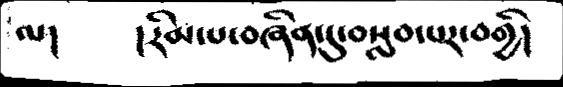ལ།      །རིམ་པ་བཞིན་དུ་བསླབ་པར་བགྱི།
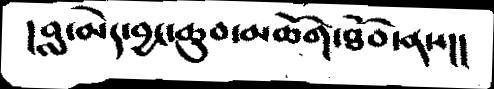།བླ་མེད་བྱང་ཆུབ་མཆོག་ཐོབ་ནས།།
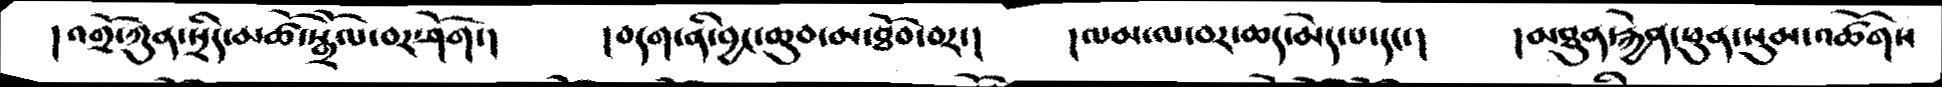།འགྲོ་ཀུན་སྲིད་མཚོ་སྒྲོལ་བར་ཤོག་།     བདག་ནི་བྱང་ཆུབ་མ་ཐོབ་བར་།    །ལམ་ལ་རབ་ཆད་མེད་པ་དང་།    །མཐུན་རྐྱེན་ཕུན་སུམ་འཚོགས
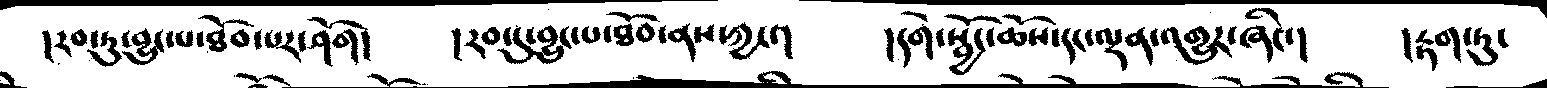།རབ་ཏུ་བྱུང་པ་ཐོབ་པར་ཤོག།   །རབ་དུ་བྱུང་པ་ཐོབ་ནས་ཀྱང་།   །དགེ་སྦྱོང་ཆོས་དང་ལྡན་འགྱུར་ཞིང་།   །རྟག་ཏུ་
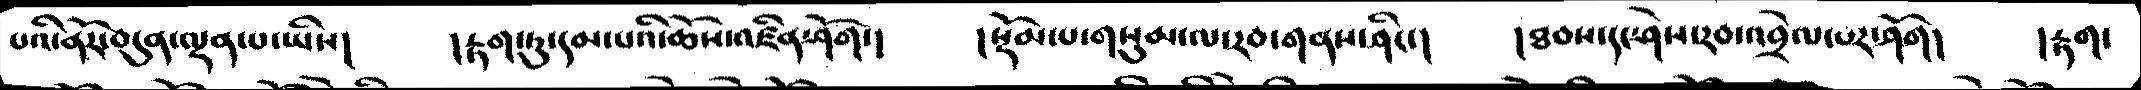པའི་ནོར་བདུན་ལྡན་པ་ཡིས་།  །རྟག་ཏུ་དམ་པའི་ཆོས་འཛིན་ཤོག་།   །སྡོམ་པ་གསུམ་ལ་རབ་གནས་ཤིང་།   །ཐབས་དང་ཤེས་རབ་འབྲེལ་པར་ཤོག།   །རྟག་
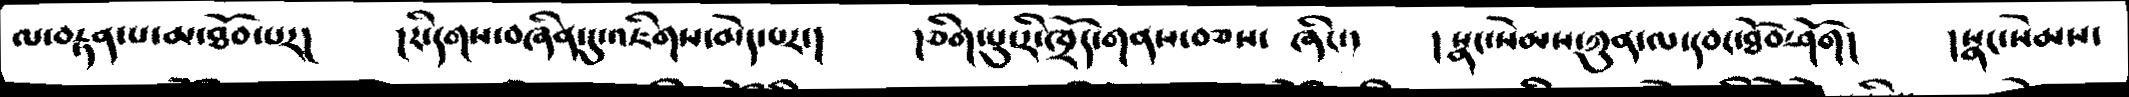ལ་བརྟན་པ་མ་ཐོབ་པར།   །རི་དགས་བཞིན་དུ་འཇིགས་མེད་པར་།   །ཅིག་པུ་རི་ཁྲོད་གནས་བཅས་ ཞིང་།   །སྣང་སེམས་ཀུན་ལ་དབང་ཐོབ་ཤོག།   །སྣང་སེམས་
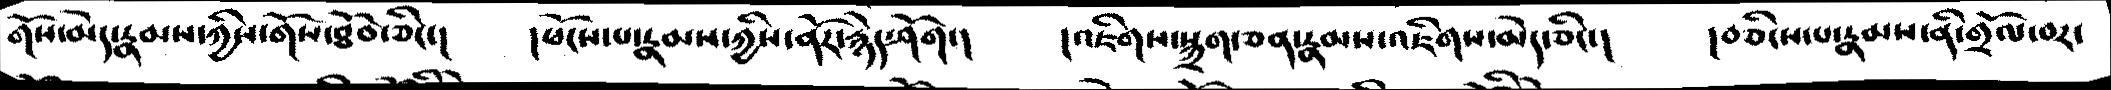གོས་མེད་རྣམས་ཀྱིས་གོས་ཐོབ་ཅིང་།   །ཕོངས་པ་རྣམས་ཀྱིས་ནོར་རྙེད་ཤོག་།   །འཇིགས་སྐྲག་ཅན་རྣམས་འཇིགས་མེད་ཅིང་།   །བཅིངས་པ་རྣམས་ནི་གྲོལ་བར་
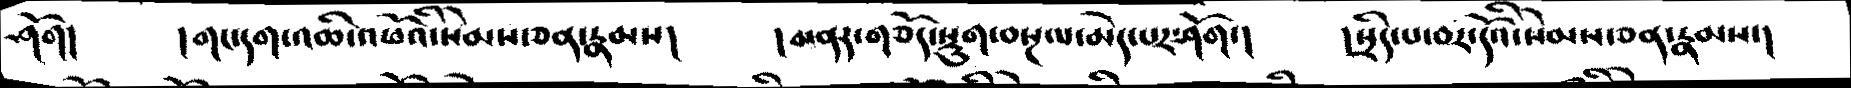ཤོག།   །གང་དག་འཆི་འཕོའི་སེམས་ཅན་རྣམས།   །མནར་གཅོད་སྡུག་བསྔལ་མེད་པར་ཤོག་།   །སྲིད་པ་བར་དོའི་སེམས་ཅན་རྣམས་།
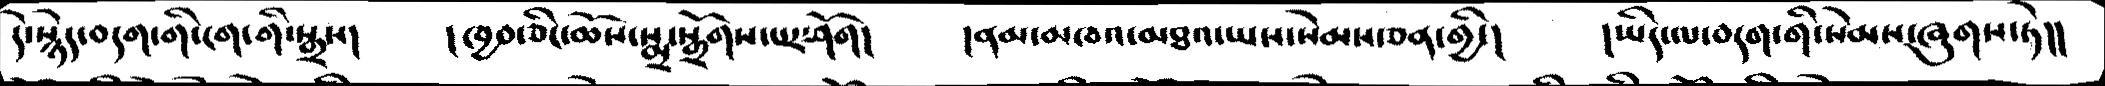དེ་སྙེད་བདག་གི་ངག་གི་སྒྲས།    །ཁྱབ་ཅིང་ཆོས་སྨྲ་སྒྲོགས་པར་ཤོག།    །ནམ་མཁའ་མཐའ་ཡས་སེམས་ཅན་གྱི་།     །ཡིད་ལ་བདག་གི་སེམས་ཞུགས་ཏེ།།
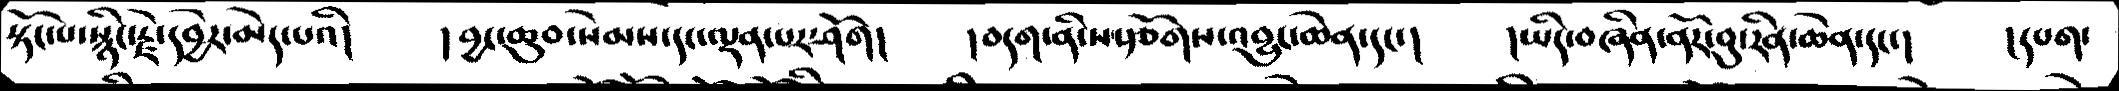སྟོང་པ་སྙིང་རྗེ་དབྱེར་མེད་པའི།    །བྱང་ཆུབ་སེམས་དང་ལྡན་པར་ཤོག།    །བདག་ནི་ས་རྩོགས་འབྱུང་ཆེན་དང་།    །ཡིད་བཞིན་ནོར་བུ་རིན་ཆེན་དང་།   །དཔག་
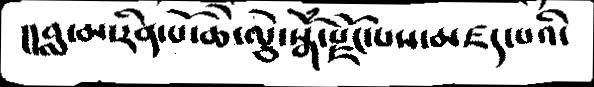།།བླ་མ་རིན་པོ་ཆེ་ལྕེ་སྒོཾ་རྫོང་པས་མཛད་པའི་
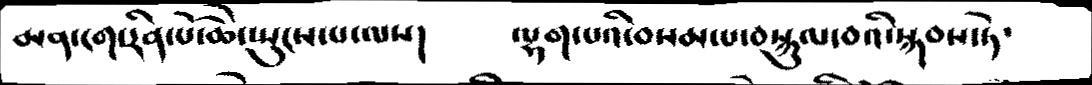མན་ངག་རིན་པོ་ཆེ་སྤུངས་པ་ལས།      ལྷག་པའི་བསམ་པ་བསྐུལ་བའི་སྐབས་ཏེ་
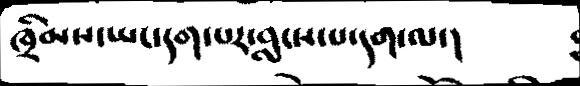ཁྲིམས་ཡང་དག་པར་བླངས་པ་དག་ལ་།
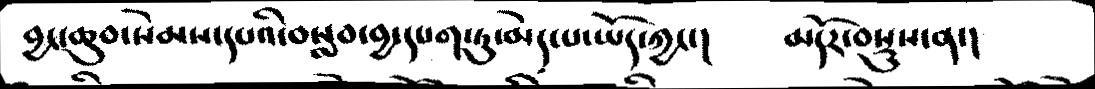བྱང་ཆུབ་སེམས་དཔའི་བསླབ་བྱ་དཔག་ཏུ་མེད་པ་ཡོད་ཀྱང་།    མདོར་བསྡུས་ན་།
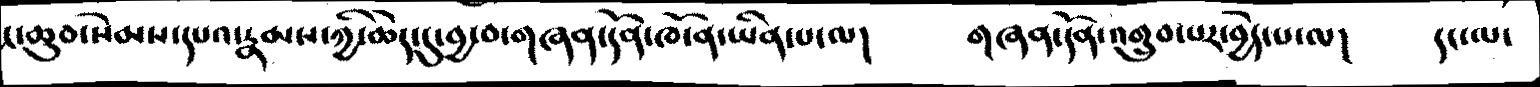ང་ཆུབ་སེམས་དཔའ་རྣམས་ཀྱི་ཆེད་དུ་བྱ་བ་གཞན་དོན་ཁོ་ན་ཡིན་པ་ལ།     གཞན་དོན་འགྲུབ་པར་བྱེད་པ་ལ།    རང་ལ་
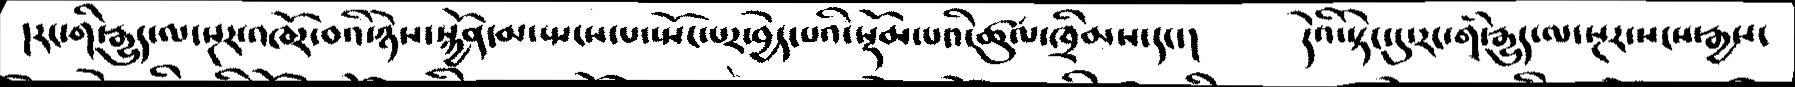།རང་གི་རྒྱུད་ལ་སྔར་འཁོར་བའི་ཉེས་སྐྱོན་མ་སྤངས་པ་སྤོང་པར་བྱེད་པའི་སྡོམ་པའི་ཚུལ་ཁྲིམས་དང་།   དེའི་སྟེང་དུ་རང་གི་རྒྱུད་ལ་སྔར་སངས་རྒྱས་
